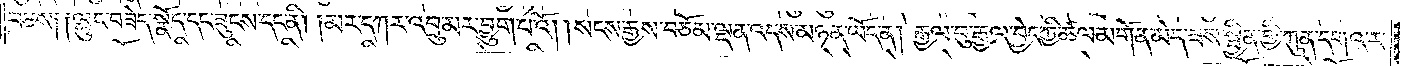བཅས༑ ༑ལྷུང་བཟེད་སྣོད་དང་ཟུངས་དང་ནི། །མར་དཀར་འབྲུ་མར་བྱུག་པའོ། །སངས་རྒྱས་བཅོམ་ལྡན་འདས་མཉན་ཡོད་ན། རྒྱལ་བུ་རྒྱལ་བྱེད་ཀྱི་ཚལ་མགོན་མེད་ཟས་སྦྱིན་གྱི་ཀུན་དགའ་ར་
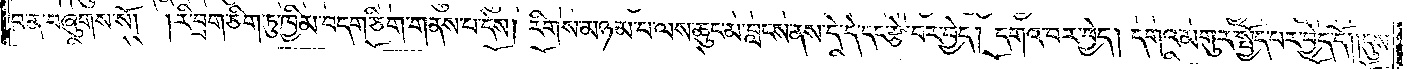བ་ན་བཞུགས་སོ། །རི་བྲག་ཅིག་ཏུ་ཁྱིམ་བདག་ཅིག་གནས་པ་དེས། རིགས་མཉམ་པ་ལས་ཆུང་མ་བླངས་ནས་དེ་དེ་དང་རྩེ་བར་བྱེད། དགའ་བར་བྱེད། དགའ་མགུར་སྤྱོད་པར་བྱེད་དོ། །དུས་
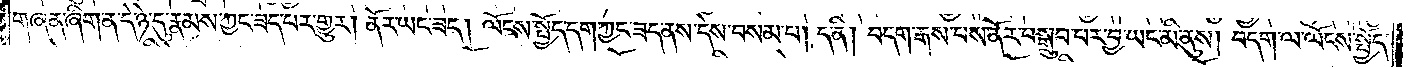གཞན་ཞིག་ན་དེ་ཉེ་དུ་རྣམས་ཀྱང་ཟད་པར་གྱུར། ནོར་ཡང་ཟད། ལོངས་སྤྱོད་དག་ཀྱང་ཟད་ནས་དེས་བསམ་པ། ད་ནི། བདག་རྒས་པས་ནོར་བསྒྲུབ་པར་བྱ་ཡང་མི་ནུས། བདག་ལ་ལོངས་སྤྱོད་
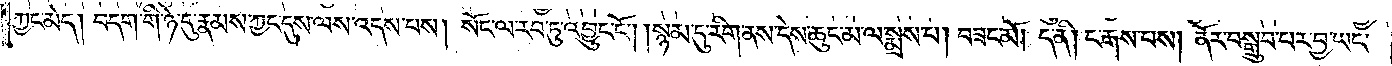ཀྱང་མེད། བདག་གི་ཉེ་དུ་རྣམས་ཀྱང་དུས་ལས་འདས་པས། སོང་ལ་རབ་ཏུ་འབྱུང་ངོ༌། །སྙམ་དུ་རིག་ནས་དེས་ཆུང་མ་ལ་སྨྲས་པ། བཟང་མོ། ད་ནི། ང་རྒས་པས། ནོར་བསྒྲུབ་པར་བྱ་ཡང་
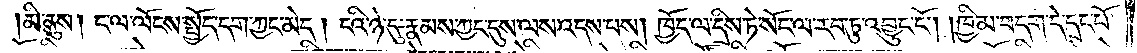མི་ནུས། ང་ལ་ལོངས་སྤྱོད་དག་ཀྱང་མེད། ངའི་ཉེ་དུ་རྣམས་ཀྱང་དུས་ལས་འདས་པས། ཁྱོད་ལ་དྲིས་ཏེ་སོང་ལ་རབ་ཏུ་འབྱུང་ངོ༌། །ཁྱིམ་བདག་དེ་དྲང་པོ་
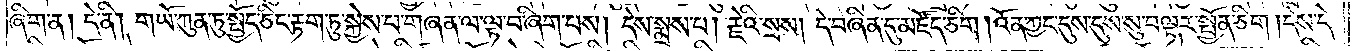ཞིག་ན། དེ་ནི། གཡོ་ཀུན་ཏུ་སྤྱོད་ཅིང་རྟག་ཏུ་སྐྱེས་པ་གཞན་ལ་ལྟ་བ་ཞིག་པས། དེས་སྨྲས་པ། རྗེའི་སྲས། དེ་བཞིན་དུ་མཛོད་ཅིག །འོན་ཀྱང་དུས་དུས་སུ་བལྟར་སྤྱོན་ཅིག །དེས་དེ་
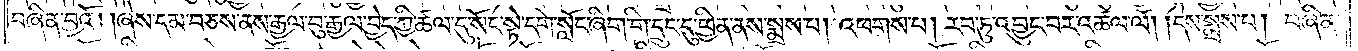བཞིན་བྱའོ། །ཞེས་དམ་བཅས་ནས་རྒྱལ་བུ་རྒྱལ་བྱེད་ཀྱི་ཚལ་དུ་སོང་སྟེ་དགེ་སློང་ཞིག་གི་དྲུང་དུ་ཕྱིན་ནས་སྨྲས་པ། འཕགས་པ། རབ་ཏུ་འབྱུང་བར་འཚལ་ལོ། །དེས་སྨྲས་པ། བཞིན་
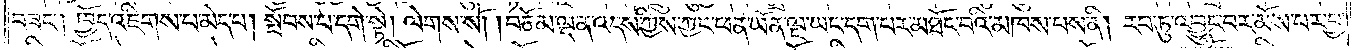བཟང༌། ཁྱོད་འཇིགས་པ་མེད་པ། སྤོབས་པ་དགེ་སྟེ། ལེགས་སོ། །བཅོམ་ལྡན་འདས་ཀྱིས་ཀྱང་ཕན་ཡོན་ལྔ་ཡང་དག་པར་མཐོང་བའི་མཁས་པས་ནི། རབ་ཏུ་འབྱུང་བར་མོས་པར་བྱ་
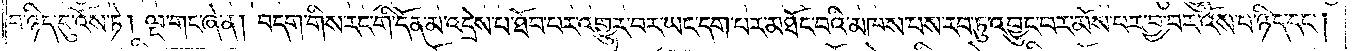བ་ཉིད་དུ་འོས་ཏེ། ལྔ་གང་ཞེ་ན། བདག་གིས་རང་གི་དོན་མ་འདྲེས་པ་ཐོབ་པར་འགྱུར་བར་ཡང་དག་པར་མཐོང་བའི་མཁས་པས་རབ་ཏུ་འབྱུང་བར་མོས་པར་བྱ་བར་འོས་པ་ཉིད་དང༌།
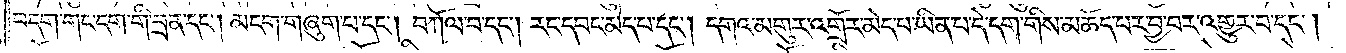བདག་གང་དག་གི་བྲན་དང༌། མངག་གཞུག་པ་དང༌། བཀོལ་བ་དང༌། རང་དབང་མེད་པ་དང༌། དགའ་མགུར་འགྲོར་མེད་པ་ཡིན་པ་དེ་དག་གིས་མཆོད་པར་བྱ་བར་འགྱུར་བ་དང༌།
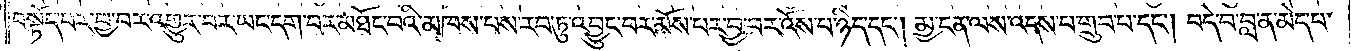བསྟོད་པར་བྱ་བར་འགྱུར་བར་ཡང་དག་པར་མཐོང་བའི་མཁས་པས་རབ་ཏུ་འབྱུང་བར་མོས་པར་བྱ་བར་འོས་པ་ཉིད་དང༌། མྱ་ངན་ལས་འདས་པ་གྲུབ་པ་དང༌། བདེ་བ་བླ་ན་མེད་པ་
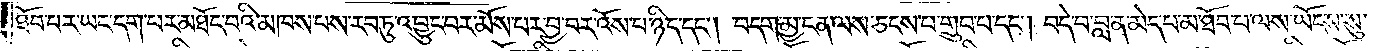ཐོབ་པར་ཡང་དག་པར་མཐོང་བའི་མཁས་པས་རབ་ཏུ་འབྱུང་བར་མོས་པར་བྱ་བར་འོས་པ་ཉིད་དང༌། བདག་མྱ་ངན་ལས་ཅངས་པ་གྲུབ་པ་དང༌། བདེ་བ་བླ་ན་མེད་པ་མ་ཐོབ་པ་ལས་ཡོངས་སུ་
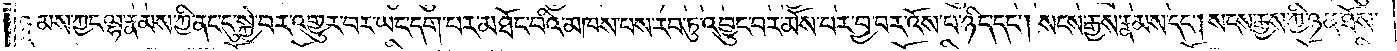ཉམས་ཀྱང་ལྷ་རྣམས་ཀྱི་ནང་དུ་སྐྱེ་བར་འགྱུར་བར་ཡང་དག་པར་མཐོང་བའི་མཁས་པས་རབ་ཏུ་འབྱུང་བར་མོས་པར་བྱ་བར་འོས་པ་ཉིད་དང༌། སངས་རྒྱས་རྣམས་དང༌། སངས་རྒྱས་ཀྱི་ཉན་ཐོས་
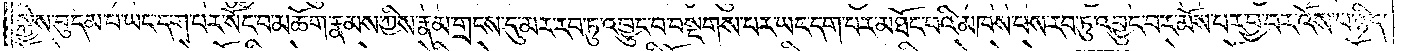སྐྱེས་བུ་དམ་པ་ཡང་དག་པར་སོང་བ་མཆོག་རྣམས་ཀྱིས་རྣམ་གྲངས་དུ་མར་རབ་ཏུ་འབྱུང་བ་བསྔགས་པར་ཡང་དག་པར་མཐོང་བའི་མཁས་པས་རབ་ཏུ་འབྱུང་བར་མོས་པར་བྱ་བར་འོས་པ་ཉིད་
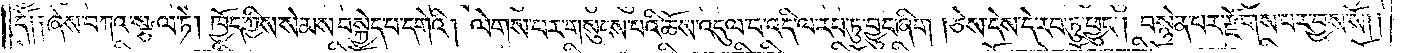དོ༑ ༑ཞེས་བཀའ་སྩལ་ཏེ། ཁྱོད་ཀྱིས་སེམས་བསྐྱེད་པ་དགེའི། ལེགས་པར་གསུངས་པའི་ཆོས་འདུལ་བ་འདི་ལ་རབ་ཏུ་བྱུང་ཞིག །ཅེས་དེས་དེ་རབ་ཏུ་ཕྱུང༌། བསྙེན་པར་རྫོགས་པར་བྱས་སོ། །
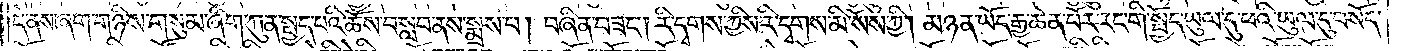དེ་ནས་ཞག་གཉིས་གསུམ་ཞིག་ཀུན་སྤྱད་པའི་ཆོས་བསླབ་ནས་སྨྲས་པ། བཞིན་བཟང༌། རི་དྭགས་ཀྱིས་རི་དྭགས་མི་སོས་ཀྱི། མཉན་ཡོད་རྒྱ་ཆེན་པོར་རང་གི་སྤྱོད་ཡུལ་དུ་ཕའི་ཡུལ་དུ་བསོད་
